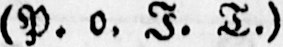(P. o. I. T.)
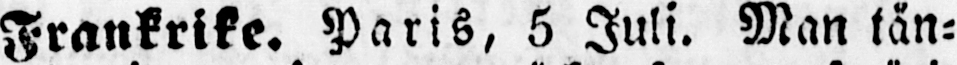Frankrike. Paris, 5 Juli. Man tän-
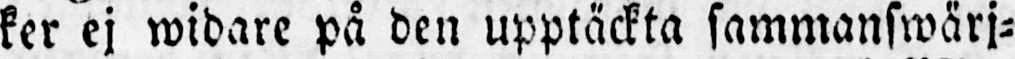ker ej widare på den upptäckta sammanswärj-
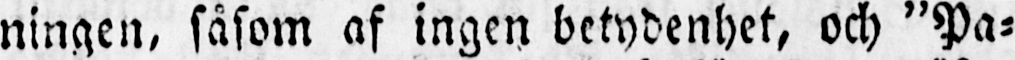ningen, såsom af ingen betydenhet, och "Pa-
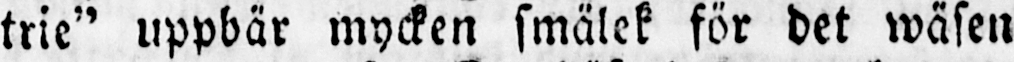trie" uppbär mycken smälek för det wäsen
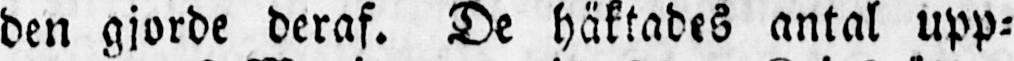den gjorde deraf. De häktades antal upp-
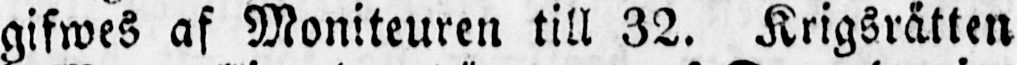gifwes af Moniteuren till 32. Krigsrätten
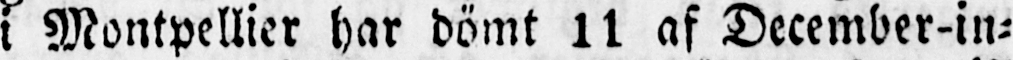i Montpellier har dömt 11 af December-in-
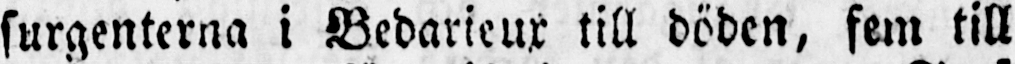surgenterna i Bedarieux till döden, fem till
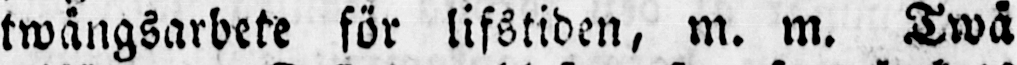twångsarbete för lifstiden, m. m. Twå
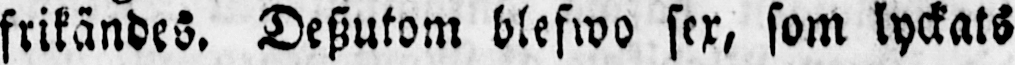frikändes. Deszutom blefwo sex, som lyckats
